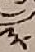༣
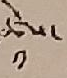ཚེས་
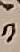༡
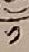༡
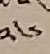༢༦
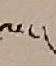ལ་།
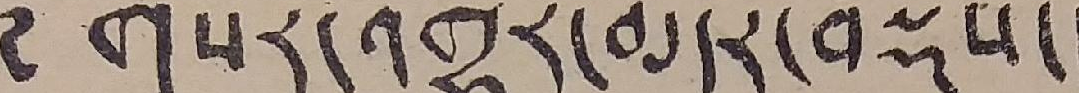༅ གསར་འགྱུར་མདོར་བསྡུས་།
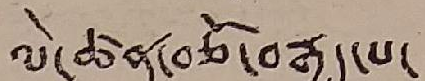ལེ་ཚན་བཅོ་བརྒྱད་པ་
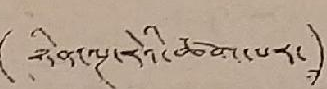(ཉིན་ལྔ་རེའི་ཚག་པར་)
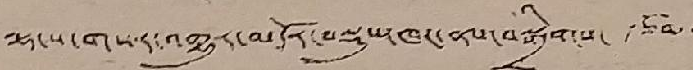ལྷ་ས་གསར་འགྱུར་མདོར་བསྡུས་ཁང་ནས་བསྒྲིགས་ རྩོམ་
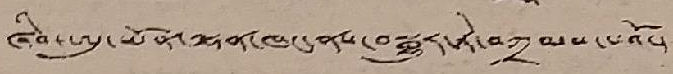ཞིབ་ཨུ་ཡོན་ལྷན་ཁང་ནས་བསྒྱུར་ཏེ་བཀྲམས་པའོ་།
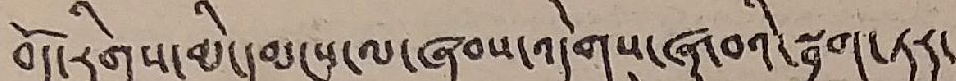བོད་རིགས་མི་དམངས་ལ་ཞལ་འདེགས་ཞུ་བའི་སྦྲག་ཏར་
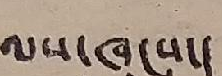ལས་ཁུངས་།
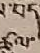ཚུལ་
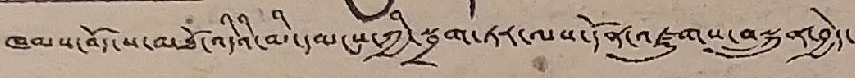ཁམས་བོད་ས་མཐོ་འདིའི་མི་དམངས་ཀྱི་སྦྲག་ཏར་ལས་དོན་འཛུགས་བསྐྲུན་བྱེད་
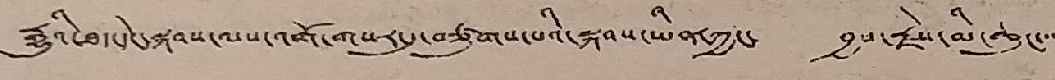རྒྱུའི་ཐད་དེང་སྐབས་ལས་འགོ་གསར་དུ་བཙུགས་པའི་སྐབས་ཡིན་ཀྱང་ བྱས་རྗེས་མི་ཆུང་་་
